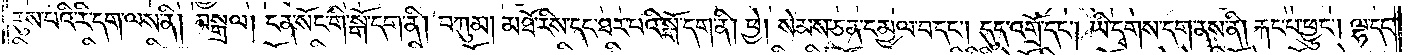རུས་པའི་རི་དག་ལས་ནི། བསྒྲལ། ངན་སོང་གི་སྒོ་དག་ནི། བཀུམ། མཐོ་རིས་དང་ཐར་པའི་སྒོ་དག་ནི། ཕྱེ། སེམས་ཅན་དམྱལ་བ་དང༌། དུད་འགྲོ་དང༌། ཡི་དྭགས་དག་ནས་ནི། རྐང་པ་ཕྱུང༌། ལྷ་དང༌།
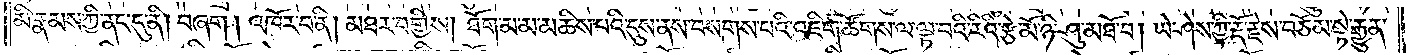མི་རྣམས་ཀྱི་ནང་དུ་ནི། བཞག །འཁོར་བ་ནི། མཐར་བགྱིས། ཐོག་མ་མ་མཆིས་པའི་དུས་ནས་བསགས་པའི་འཇིག་ཚོགས་ལ་ལྟ་བའི་རིའི་རྩེ་མོ་ཉི་ཤུ་མཐོ་བ། ཡེ་ཤེས་ཀྱི་རྡོ་རྗེས་བཅོམ་སྟེ་རྒྱུན་
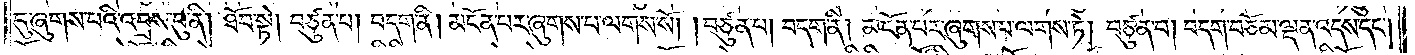དུ་ཞུགས་པའི་འབྲས་བུ་ནི། ཐོབ་སྟེ། བཙུན་པ། བདག་ནི། མངོན་པར་ཞུགས་པ་ལགས་སོ། །བཙུན་པ། བདག་ནི། མངོན་པར་ཞུགས་པ་ལགས་ཏེ། བཙུན་པ། བདག་བཅོམ་ལྡན་འདས་དང༌།
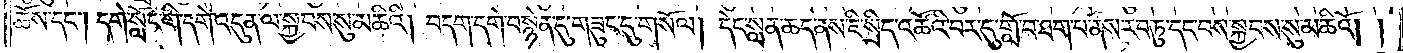ཆོས་དང༌། དགེ་སློང་གི་དགེ་འདུན་ལ་སྐྱབས་སུ་མཆིའི། བདག་དགེ་བསྙེན་དུ་གཟུང་དུ་གསལ། དེང་སླན་ཆད་ནས་ཇི་སྲིད་འཚོའི་བར་དུ་གློ་བ་ཐག་པ་ནས་རབ་ཏུ་དང་བས་སྐྱབས་སུ་མཆིའོ། །
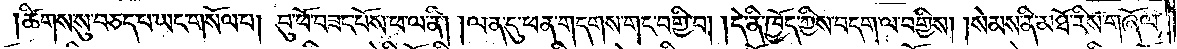ཚིགས་སུ་བཅད་པ་ཡང་གསོལ་པ། བུ་ཕོ་བཟང་པོས་ཕ་ལ་ནི། །ལན་དུ་ཕན་གདགས་གང་བགྱི་བ། །དེ་ནི་ཁྱོད་ཀྱིས་བདག་ལ་བགྱིས། །སེམས་ནི་མཐོ་རིས་གཞོལ་
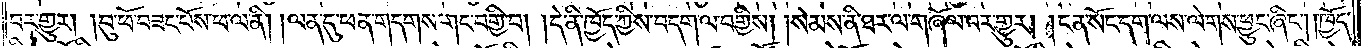བར་གྱུར། །བུ་ཕོ་བཟང་པོས་ཕ་ལ་ནི། །ལན་དུ་ཕན་གདགས་གང་བགྱི་བ། །དེ་ནི་ཁྱོད་ཀྱིས་བདག་ལ་བགྱིས། །སེམས་ནི་ཐར་ལ་གཞོལ་བར་གྱུར། །ངན་སོང་དག་ལས་ལེགས་ཕྱུང་ཞིང༌། །ཁྱོད་
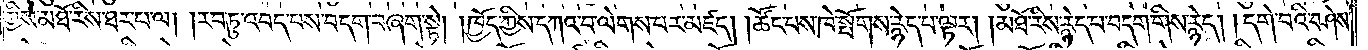ཀྱིས་མཐོ་རིས་ཐར་པ་ལ། །རབ་ཏུ་འབད་པས་བདག་བཞག་སྟེ། །ཁྱོད་ཀྱིས་དཀའ་བ་ལེགས་པར་མཛད། །ཚོང་པས་ཁེ་སྤོགས་རྙེད་པ་ལྟར། །མཐོ་རིས་རྙེད་པ་བདག་གིས་རྙེད། །དགེ་བའི་བཤེས་
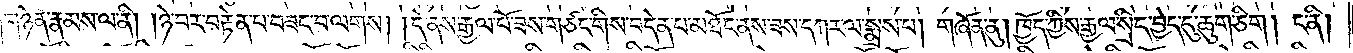གཉེན་རྣམས་ལ་ནི། །ཉེ་བར་བརྟེན་པ་བཟང་བ་ལགས། །དེ་ནས་རྒྱལ་པོ་ཟས་གཙང་གིས་བདེན་པ་མཐོང་ནས་ཟས་དཀར་ལ་སྨྲས་པ། གཞོན་ནུ། ཁྱོད་ཀྱིས་རྒྱལ་སྲིད་བྱེད་དུ་ཆུག་ཅིག །ང་ནི།
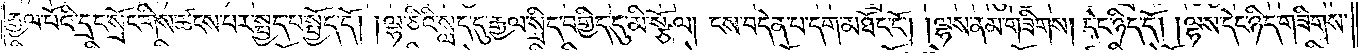རྒྱལ་པོའི་དྲང་སྲོང་གིས་ཚངས་པར་སྤྱད་པ་སྤྱོད་དོ། །ལྷ་ཅིའི་སླད་དུ་རྒྱལ་སྲིད་བགྱིད་དུ་མི་སྩོལ། ངས་བདེན་པ་དག་མཐོང་ངོ༌། །ལྷས་ནམ་གཟིགས། དེང་ཉིད་དོ། །ལྷས་དེང་ཉིད་གཟིགས་
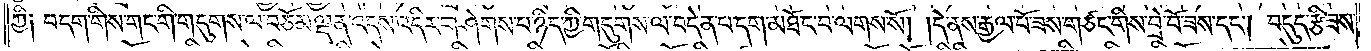ཀྱི༑ བདག་གིས་གང་གི་གདུགས་ལ་བཅོམ་ལྡན་འདས་འདིར་གཤེགས་པ་ཉིད་ཀྱི་གདུགས་ལ་བདེན་པ་དག་མཐོང་བ་ལགས་སོ། །དེ་ནས་རྒྱལ་པོ་ཟས་གཙང་གིས་བྲེ་བོ་ཟས་དང༌། བདུད་རྩི་ཟས་
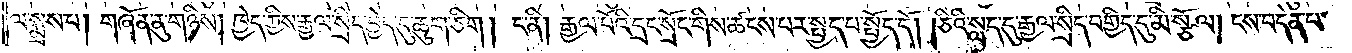ལ་སྨྲས་པ། གཞོན་ནུ་གཉིས། ཁྱེད་ཀྱིས་རྒྱལ་སྲིད་བྱེད་དུ་ཆུག་ཅིག། ང་ནི། རྒྱལ་པོའི་དྲང་སྲོང་གིས་ཚངས་པར་སྤྱད་པ་སྤྱོད་དོ། །ཅིའི་སླད་དུ་རྒྱལ་སྲིད་བགྱིད་དུ་མི་སྩོལ། ངས་བདེན་པ་
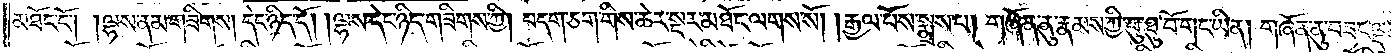མཐོང་ངོ༌། །ལྷས་ནམ་གཟིགས། དེང་ཉིད་དོ། །ལྷས་དེང་ཉིད་གཟིགས་ཀྱི། བདག་ཅག་གིས་ཆེར་སྔར་མཐོང་ལགས་སོ། །རྒྱལ་པོས་སྨྲས་པ། གཞོན་ནུ་རྣམས་ཀྱི་བུ་ཐུ་བོ་གང་ཡིན། གཞོན་ནུ་བཟང་ལྡན་
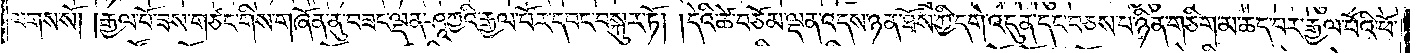ལགས་སོ། །རྒྱལ་པོ་ཟས་གཙང་གིས་གཞོན་ནུ་བཟང་ལྡན་ཤཱཀྱའི་རྒྱལ་པོར་དབང་བསྐུར་ཏོ། །དེའི་ཚེ་བཅོམ་ལྡན་འདས་ཉན་ཐོས་ཀྱི་དགེ་འདུན་དང་བཅས་པ་ཉིན་གཅིག་མ་ཆད་པར་རྒྱལ་པོའི་ཕོ་
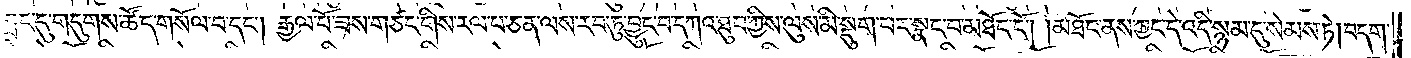བྲང་དུ་གདུགས་ཚོད་གསོལ་བ་དང༌། རྒྱལ་པོ་ཟས་གཙང་གིས་རལ་པ་ཅན་ལས་རབ་ཏུ་བྱུང་བ་དཀའ་ཐུབ་ཀྱིས་ལུས་མི་སྡུག་པར་སྣང་བ་མཐོང་ངོ༌། །མཐོང་ནས་ཀྱང་དེ་འདི་སྙམ་དུ་སེམས་ཏེ། བདག་
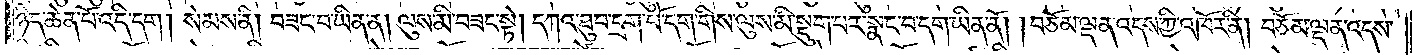ཉིད་ཆེན་པོ་འདི་དག །སེམས་ནི། བཟང་བ་ཡིན་ན། ལུས་མི་བཟང་སྟེ། དཀའ་ཐུབ་དྲག་པོ་དག་གིས་ལུས་མི་སྡུག་པར་སྣང་བ་དག་ཡིན་ནོ། །བཅོམ་ལྡན་འདས་ཀྱི་འཁོར་ནི། བཅོམ་ལྡན་འདས་
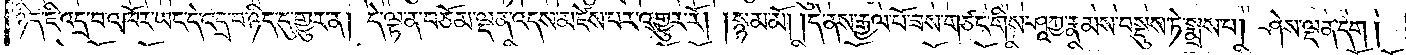ཉིད་ཇི་འདྲ་བ་འཁོར་ཡང་དེ་འདྲ་བ་ཉིད་དུ་གྱུར་ན། དེ་ལྟ་ན་བཅོམ་ལྡན་འདས་མཛེས་པར་འགྱུར་རོ། །སྙམ་མོ། དེ་ནས་རྒྱལ་པོ་ཟས་གཙང་གིས་ཤཱཀྱ་རྣམས་བསྡུས་ཏེ་སྨྲས་པ། ཤེས་ལྡན་དག །
